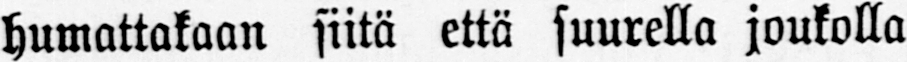humattakaan siitä että suurella joukolla
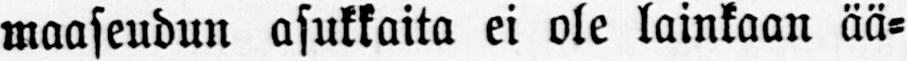maaseudun asukkaita ei ole lainkaan ää-
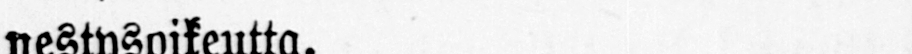nestysoikeutta.
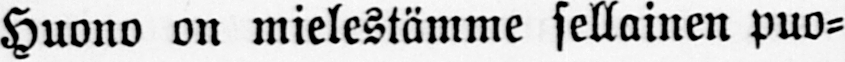Huono on mielestämme sellainen puo-
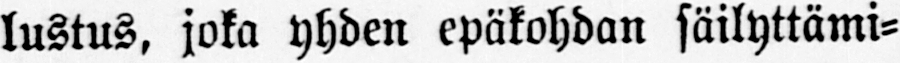lustus, joka yhden epäkohdan säilyttämi-
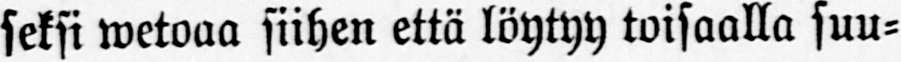seksi wetoaa siihen että löytyy toisaalla suu-
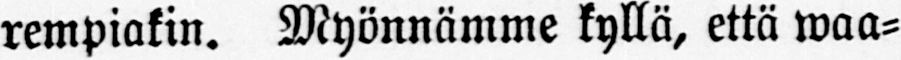rempiakin. Myönnämme kyllä, että waa-
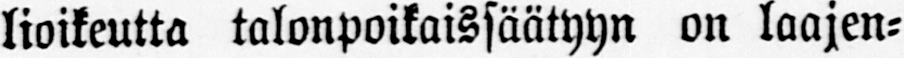lioikeutta talonpoikaissäätyyn on laajen-
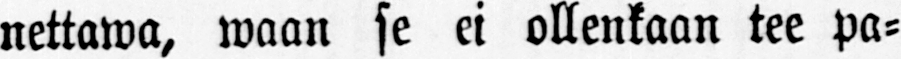nettawa, waan se ei ollenkaan tee pa-
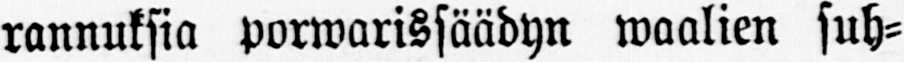rannuksia porwarissäädyn waalien suh-
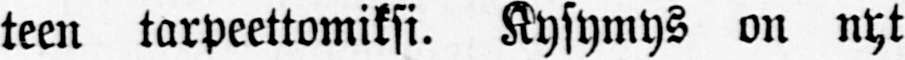teen tarpeettomiksi. Kysymys on nyt
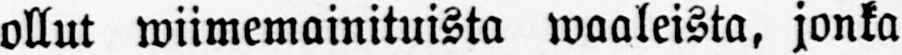ollut wiimemainituista waaleista, jonka
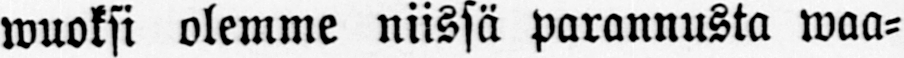wuoksi olemme niissä parannusta waa-
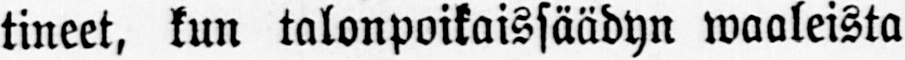tineet, kun talonpoikaissäädyn waaleista
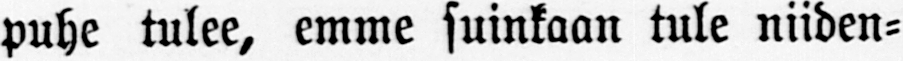puhe tulee, emme suinkaan tule niiden-
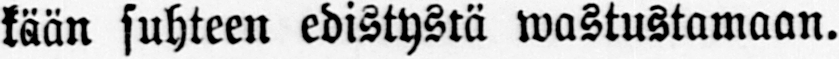kään suhteen edistystä wastustamaan.
